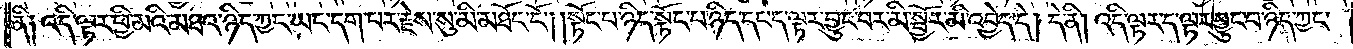ནི༑ འདི་ལྟར་ཕྱི་མའི་མཐའ་ཉིད་ཀྱང་ཡང་དག་པར་རྗེས་སུ་མི་མཐོང་ངོ༌། །སྟོང་པ་ཉིད་སྟོང་པ་ཉིད་དང་ད་ལྟར་བྱུང་བར་མི་སྦྱོར་མི་འབྱེད་དེ། དེ་ནི། འདི་ལྟར་ད་ལྟར་བྱུང་བ་ཉིད་ཀྱང་
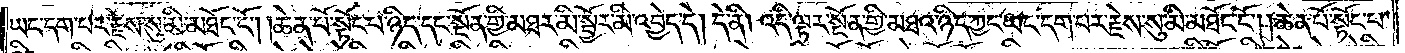ཡང་དག་པར་རྗེས་སུ་མི་མཐོང་ངོ༌། །ཆེན་པོ་སྟོང་པ་ཉིད་དང་སྔོན་གྱི་མཐར་མི་སྦྱོར་མི་འབྱེད་དེ། དེ་ནི། འདི་ལྟར་སྔོན་གྱི་མཐའ་ཉིད་ཀྱང་ཡང་དག་པར་རྗེས་སུ་མི་མཐོང་ངོ༌། །ཆེན་པོ་སྟོང་པ་
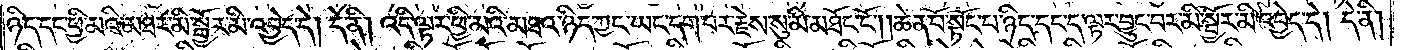ཉིད་དང་ཕྱི་མའི་མཐར་མི་སྦྱོར་མི་འབྱེད་དེ། དེ་ནི། འདི་ལྟར་ཕྱི་མའི་མཐའ་ཉིད་ཀྱང་ཡང་དག་པར་རྗེས་སུ་མི་མཐོང་ངོ༌། །ཆེན་པོ་སྟོང་པ་ཉིད་དང་ད་ལྟར་བྱུང་བར་མི་སྦྱོར་མི་འབྱེད་དེ། དེ་ནི།
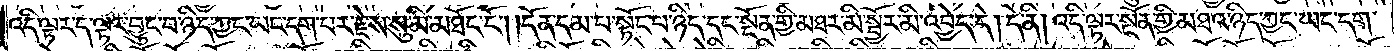འདི་ལྟར་ད་ལྟར་བྱུང་བ་ཉིད་ཀྱང་ཡང་དག་པར་རྗེས་སུ་མི་མཐོང་ངོ༌། །དོན་དམ་པ་སྟོང་པ་ཉིད་དང་སྔོན་གྱི་མཐར་མི་སྦྱོར་མི་འབྱེད་དེ། དེ་ནི། འདི་ལྟར་སྔོན་གྱི་མཐའ་ཉིད་ཀྱང་ཡང་དག་
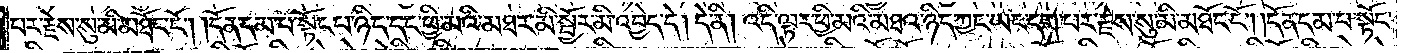པར་རྗེས་སུ་མི་མཐོང་ངོ༌། །དོན་དམ་པ་སྟོང་པ་ཉིད་དང་ཕྱི་མའི་མཐར་མི་སྦྱོར་མི་འབྱེད་དེ། དེ་ནི། འདི་ལྟར་ཕྱི་མའི་མཐའ་ཉིད་ཀྱང་ཡང་དག་པར་རྗེས་སུ་མི་མཐོང་ངོ༌། །དོན་དམ་པ་སྟོང་
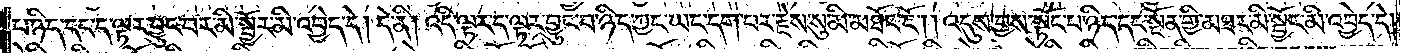པ་ཉིད་དང་ད་ལྟར་བྱུང་བར་མི་སྦྱོར་མི་འབྱེད་དེ། དེ་ནི། འདི་ལྟར་ད་ལྟར་བྱུང་བ་ཉིད་ཀྱང་ཡང་དག་པར་རྗེས་སུ་མི་མཐོང་ངོ༌། །འདུས་བྱས་སྟོང་པ་ཉིད་དང་སྔོན་གྱི་མཐར་མི་སྦྱོར་མི་འབྱེད་དེ།
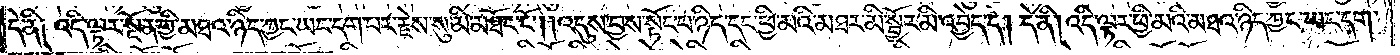དེ་ནི༑ འདི་ལྟར་སྔོན་གྱི་མཐའ་ཉིད་ཀྱང་ཡང་དག་པར་རྗེས་སུ་མི་མཐོང་ངོ༌། །འདུས་བྱས་སྟོང་པ་ཉིད་དང་ཕྱི་མའི་མཐར་མི་སྦྱོར་མི་འབྱེད་དེ། དེ་ནི། འདི་ལྟར་ཕྱི་མའི་མཐའ་ཉིད་ཀྱང་ཡང་དག་
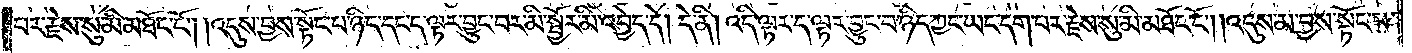པར་རྗེས་སུ་མི་མཐོང་ངོ༌། །འདུས་བྱས་སྟོང་པ་ཉིད་དང་ད་ལྟར་བྱུང་བར་མི་སྦྱོར་མི་འབྱེད་དེ། དེ་ནི། འདི་ལྟར་ད་ལྟར་བྱུང་བ་ཉིད་ཀྱང་ཡང་དག་པར་རྗེས་སུ་མི་མཐོང་ངོ༌། །འདུས་མ་བྱས་སྟོང་པ་
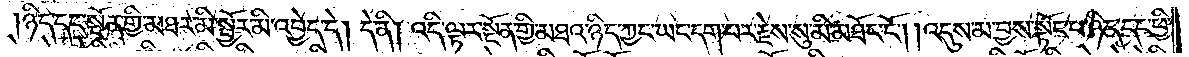ཉིད་དང་སྔོན་གྱི་མཐར་མི་སྦྱོར་མི་འབྱེད་དེ། དེ་ནི། འདི་ལྟར་སྔོན་གྱི་མཐའ་ཉིད་ཀྱང་ཡང་དག་པར་རྗེས་སུ་མི་མཐོང་ངོ༌། །འདུས་མ་བྱས་སྟོང་པ་ཉིད་དང་ཕྱི་
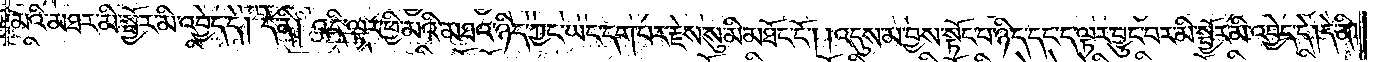མའི་མཐར་མི་སྦྱོར་མི་འབྱེད་དེ། དེ་ནི། འདི་ལྟར་ཕྱི་མའི་མཐའ་ཉིད་ཀྱང་ཡང་དག་པར་རྗེས་སུ་མི་མཐོང་ངོ༌། །འདུས་མ་བྱས་སྟོང་པ་ཉིད་དང་ད་ལྟར་བྱུང་བར་མི་སྦྱོར་མི་འབྱེད་དེ། དེ་ནི།
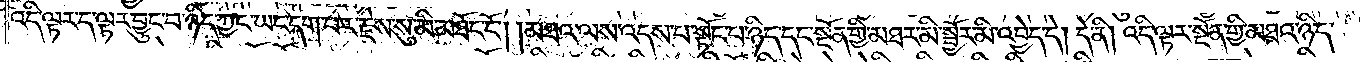འདི་ལྟར་ད་ལྟར་བྱུང་བ་ཉིད་ཀྱང་ཡང་དག་པར་རྗེས་སུ་མི་མཐོང་ངོ༌། །མཐའ་ལས་འདས་པ་སྟོང་པ་ཉིད་དང་སྔོན་གྱི་མཐར་མི་སྦྱོར་མི་འབྱེད་དེ། དེ་ནི། འདི་ལྟར་སྔོན་གྱི་མཐའ་ཉིད་
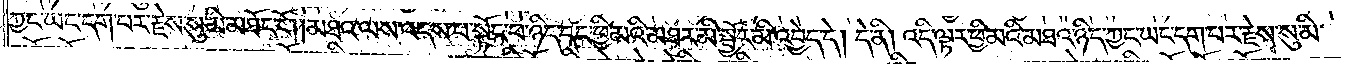ཀྱང་ཡང་དག་པར་རྗེས་སུ་མི་མཐོང་ངོ༌། །མཐའ་ལས་འདས་པ་སྟོང་པ་ཉིད་དང་ཕྱི་མའི་མཐར་མི་སྦྱོར་མི་འབྱེད་དེ། དེ་ནི། འདི་ལྟར་ཕྱི་མའི་མཐའ་ཉིད་ཀྱང་ཡང་དག་པར་རྗེས་སུ་མི་
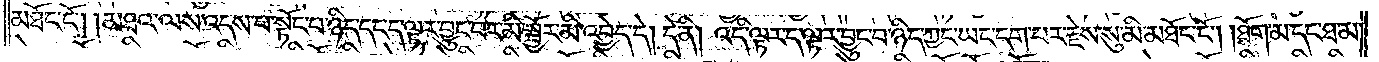མཐོང་ངོ༌། །མཐའ་ལས་འདས་པ་སྟོང་པ་ཉིད་དང་ད་ལྟར་བྱུང་བར་མི་སྦྱོར་མི་འབྱེད་དེ། དེ་ནི། འདི་ལྟར་ད་ལྟར་བྱུང་བ་ཉིད་ཀྱང་ཡང་དག་པར་རྗེས་སུ་མི་མཐོང་ངོ༌། །ཐོག་མ་དང་ཐ་མ་
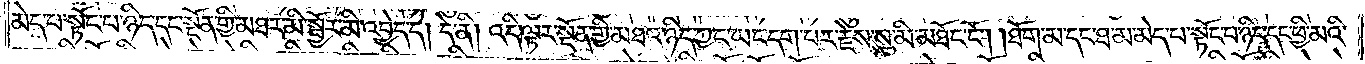མེད་པ་སྟོང་པ་ཉིད་དང་སྔོན་གྱི་མཐར་མི་སྦྱོར་མི་འབྱེད་དེ། དེ་ནི། འདི་ལྟར་སྔོན་གྱི་མཐའ་ཉིད་ཀྱང་ཡང་དག་པར་རྗེས་སུ་མི་མཐོང་ངོ༌། །ཐོག་མ་དང་ཐ་མ་མེད་པ་སྟོང་པ་ཉིད་དང་ཕྱི་མའི་
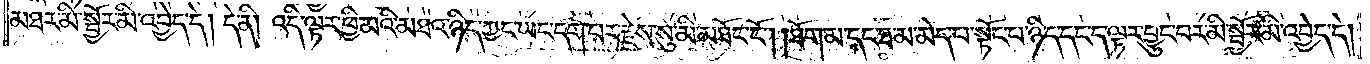མཐར་མི་སྦྱོར་མི་འབྱེད་དེ། དེ་ནི། འདི་ལྟར་ཕྱི་མའི་མཐའ་ཉིད་ཀྱང་ཡང་དག་པར་རྗེས་སུ་མི་མཐོང་ངོ༌། །ཐོག་མ་དང་ཐ་མ་མེད་པ་སྟོང་པ་ཉིད་དང་ད་ལྟར་བྱུང་བར་མི་སྦྱོར་མི་འབྱེད་དེ།
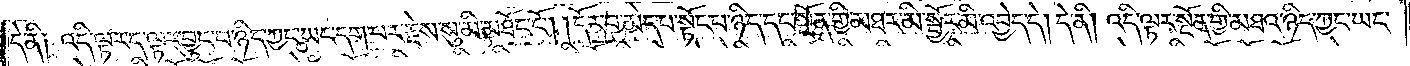དེ་ནི༑ འདི་ལྟར་ད་ལྟར་བྱུང་བ་ཉིད་ཀྱང་ཡང་དག་པར་རྗེས་སུ་མི་མཐོང་ངོ༌། །དོར་བ་མེད་པ་སྟོང་པ་ཉིད་དང་སྔོན་གྱི་མཐར་མི་སྦྱོར་མི་འབྱེད་དེ། དེ་ནི། འདི་ལྟར་སྔོན་གྱི་མཐའ་ཉིད་ཀྱང་ཡང་
